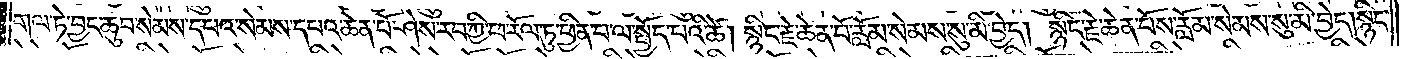གལ་ཏེ་བྱང་ཆུབ་སེམས་དཔའ་སེམས་དཔའ་ཆེན་པོ་ཤེས་རབ་ཀྱི་ཕ་རོལ་ཏུ་ཕྱིན་པ་ལ་སྤྱོད་པའི་ཚེ། སྙིང་རྗེ་ཆེན་པོ་རློམ་སེམས་སུ་མི་བྱེད། སྙིང་རྗེ་ཆེན་པོས་རློམ་སེམས་སུ་མི་བྱེད། སྙིང་
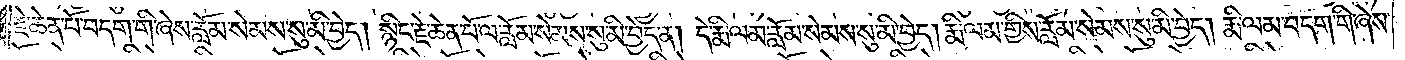རྗེ་ཆེན་པོ་བདག་གི་ཞེས་རློམ་སེམས་སུ་མི་བྱེད། སྙིང་རྗེ་ཆེན་པོ་ལ་རློམ་སེམས་སུ་མི་བྱེད་ན། དེ་རྨི་ལམ་རློམ་སེམས་སུ་མི་བྱེད། རྨི་ལམ་གྱིས་རློམ་སེམས་སུ་མི་བྱེད། རྨི་ལམ་བདག་གི་ཞེས་
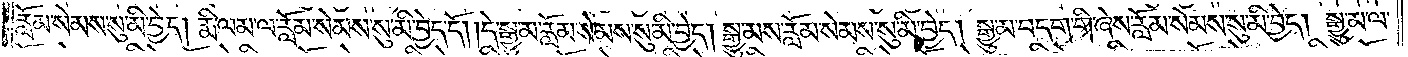རློམ་སེམས་སུ་མི་བྱེད། རྨི་ལམ་ལ་རློམ་སེམས་སུ་མི་བྱེད་དོ། །དེ་སྒྱུ་མ་རློམ་སེམས་སུ་མི་བྱེད། སྒྱུ་མས་རློམ་སེམས་སུ་མི་བྱེད། སྒྱུ་མ་བདག་གི་ཞེས་རློམ་སེམས་སུ་མི་བྱེད། སྒྱུ་མ་ལ་
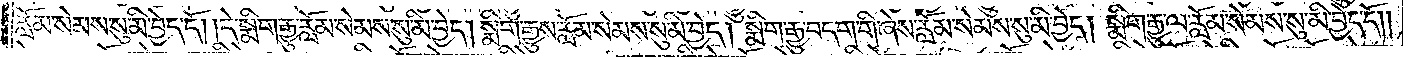རློམ་སེམས་སུ་མི་བྱེད་དོ། །དེ་སྨིག་རྒྱུ་རློམ་སེམས་སུ་མི་བྱེད། སྨིག་རྒྱུས་རློམ་སེམས་སུ་མི་བྱེད། སྨིག་རྒྱུ་བདག་གི་ཞེས་རློམ་སེམས་སུ་མི་བྱེད། སྨིག་རྒྱུ་ལ་རློམ་སེམས་སུ་མི་བྱེད་དོ། །
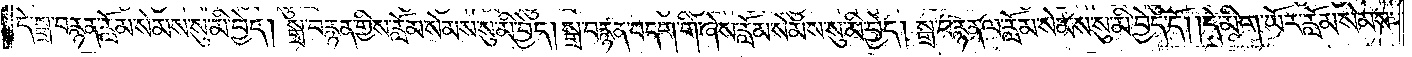དེ་སྒྲ་བརྙན་རློམ་སེམས་སུ་མི་བྱེད། སྒྲ་བརྙན་གྱིས་རློམ་སེམས་སུ་མི་བྱེད། སྒྲ་བརྙན་བདག་གི་ཞེས་རློམ་སེམས་སུ་མི་བྱེད། སྒྲ་བརྙན་ལ་རློམ་སེམས་སུ་མི་བྱེད་དོ། །དེ་མིག་ཡོར་རློམ་སེམས་
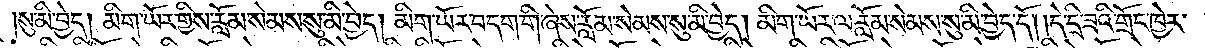སུ་མི་བྱེད། མིག་ཡོར་གྱིས་རློམ་སེམས་སུ་མི་བྱེད། མིག་ཡོར་བདག་གི་ཞེས་རློམ་སེམས་སུ་མི་བྱེད། མིག་ཡོར་ལ་རློམ་སེམས་སུ་མི་བྱེད་དོ། །དེ་དྲི་ཟའི་གྲོང་ཁྱེར་
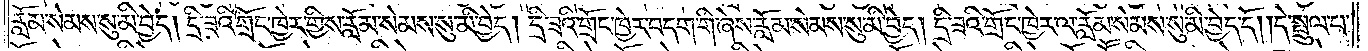རློམ་སེམས་སུ་མི་བྱེད། དྲི་ཟའི་གྲོང་ཁྱེར་གྱིས་རློམ་སེམས་སུ་མི་བྱེད། དྲི་ཟའི་གྲོང་ཁྱེར་བདག་གི་ཞེས་རློམ་སེམས་སུ་མི་བྱེད། དྲི་ཟའི་གྲོང་ཁྱེར་ལ་རློམ་སེམས་སུ་མི་བྱེད་དོ། །དེ་སྤྲུལ་པ་
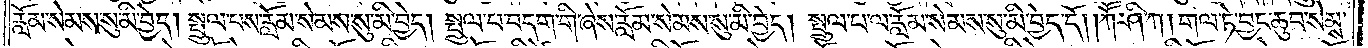རློམ་སེམས་སུ་མི་བྱེད། སྤྲུལ་པས་རློམ་སེམས་སུ་མི་བྱེད། སྤྲུལ་པ་བདག་གི་ཞེས་རློམ་སེམས་སུ་མི་བྱེད། སྤྲུལ་པ་ལ་རློམ་སེམས་སུ་མི་བྱེད་དོ། །ཀཽ་ཤི་ཀ། གལ་ཏེ་བྱང་ཆུབ་སེམས་
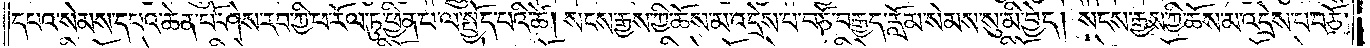དཔའ་སེམས་དཔའ་ཆེན་པོ་ཤེས་རབ་ཀྱི་ཕ་རོལ་ཏུ་ཕྱིན་པ་ལ་སྤྱོད་པའི་ཚེ། སངས་རྒྱས་ཀྱི་ཆོས་མ་འདྲེས་པ་བཅོ་བརྒྱད་རློམ་སེམས་སུ་མི་བྱེད། སངས་རྒྱས་ཀྱི་ཆོས་མ་འདྲེས་པ་བཅོ་
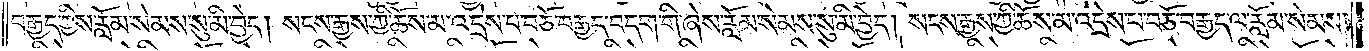བརྒྱད་ཀྱིས་རློམ་སེམས་སུ་མི་བྱེད། སངས་རྒྱས་ཀྱི་ཆོས་མ་འདྲེས་པ་བཅུ་བརྒྱད་བདག་གི་ཞེས་རློམ་སེམས་སུ་མི་བྱེད། སངས་རྒྱས་ཀྱི་ཆོས་མ་འདྲེས་པ་བཅོ་བརྒྱད་ལ་རློམ་སེམས་
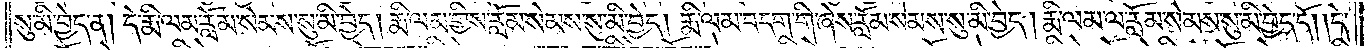སུ་མི་བྱེད་ན། དེ་རྨི་ལམ་རློམ་སེམས་སུ་མི་བྱེད། རྨི་ལམ་གྱིས་རློམ་སེམས་སུ་མི་བྱེད། རྨི་ལམ་བདག་གི་ཞེས་རློམ་སེམས་སུ་མི་བྱེད། རྨི་ལམ་ལ་རློམ་སེམས་སུ་མི་བྱེད་དོ། །དེ་
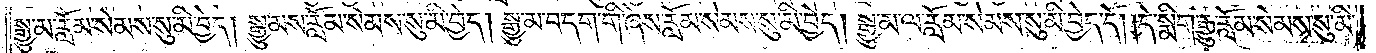སྒྱུ་མ་རློམ་སེམས་སུ་མི་བྱེད། སྒྱུ་མས་རློམ་སེམས་སུ་མི་བྱེད། སྒྱུ་མ་བདག་གི་ཞེས་རློམ་སེམས་སུ་མི་བྱེད། སྒྱུ་མ་ལ་རློམ་སེམས་སུ་མི་བྱེད་དོ། །དེ་སྨིག་རྒྱུ་རློམ་སེམས་སུ་མི་
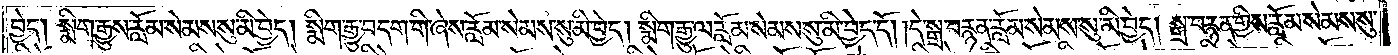བྱེད། སྨིག་རྒྱུས་རློམ་སེམས་སུ་མི་བྱེད། སྨིག་རྒྱུ་བདག་གི་ཞེས་རློམ་སེམས་སུ་མི་བྱེད། སྨིག་རྒྱུ་ལ་རློམ་སེམས་སུ་མི་བྱེད་དོ། །དེ་སྒྲ་བརྙན་རློམ་སེམས་སུ་མི་བྱེད། སྒྲ་བརྙན་གྱིས་རློམ་སེམས་སུ་
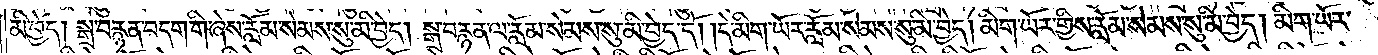མི་བྱེད། སྒྲ་བརྙན་བདག་གི་ཞེས་རློམ་སེམས་སུ་མི་བྱེད། སྒྲ་བརྙན་ལ་རློམ་སེམས་སུ་མི་བྱེད་དོ། །དེ་མིག་ཡོར་རློམ་སེམས་སུ་མི་བྱེད། མིག་ཡོར་གྱིས་རློམ་སེམས་སུ་མི་བྱེད། མིག་ཡོར་
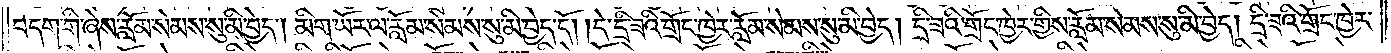བདག་གི་ཞེས་རློམ་སེམས་སུ་མི་བྱེད། མིག་ཡོར་ལ་རློམ་སེམས་སུ་མི་བྱེད་དོ། །དེ་དྲི་ཟའི་གྲོང་ཁྱེར་རློམ་སེམས་སུ་མི་བྱེད། དྲི་ཟའི་གྲོང་ཁྱེར་གྱིས་རློམ་སེམས་སུ་མི་བྱེད། དྲི་ཟའི་གྲོང་ཁྱེར་
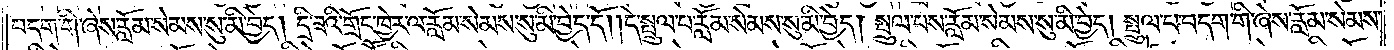བདག་གི་ཞེས་རློམ་སེམས་སུ་མི་བྱེད། དྲི་ཟའི་གྲོང་ཁྱེར་ལ་རློམ་སེམས་སུ་མི་བྱེད་དོ། །དེ་སྤྲུལ་པ་རློམ་སེམས་སུ་མི་བྱེད། སྤྲུལ་པས་རློམ་སེམས་སུ་མི་བྱེད། སྤྲུལ་པ་བདག་གི་ཞེས་རློམ་སེམས་
